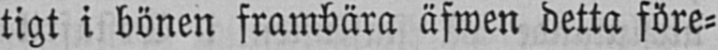tigt i bönen frambära äfwen detta före-
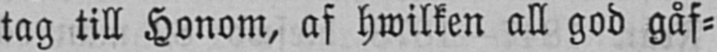tag till Honom, af hwilken all god gåf-
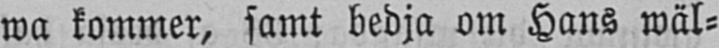wa kommer, samt bedja om Hans wäl-
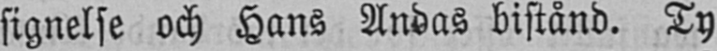signelse och Hans Andas bistånd. Ty
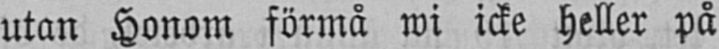utan Honom förmå wi icke heller på
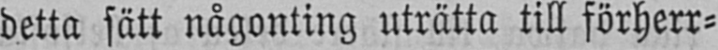detta sätt någonting uträtta till förherr-
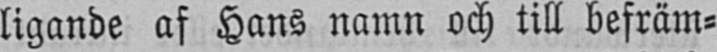ligande af Hans namn och till befräm-
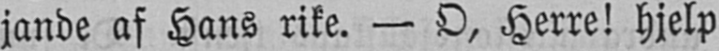jande af Hans rike. — O, Herre! hjelp
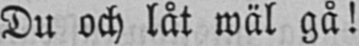Du och låt wäl gå!
